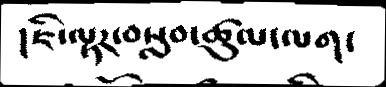།ཇི་ལྟར་བསླབ་ཚུལ་ལག་
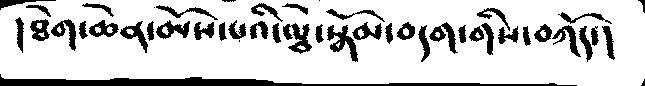།ཐེག་ཆེན་མོས་པའི་ལྕེ་སྒོམ་བདག་གིས་བཀོད་།
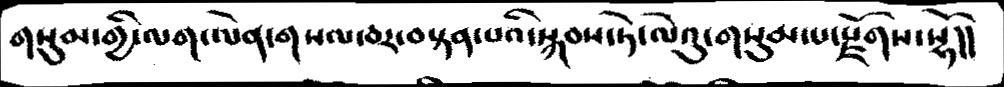གསུམ་གྱི་ལག་ལེན་གསལ་བར་བསྟན་པའི་སྐབས་ཏེ་ལེའུ་གསུམ་པ་རྫོགས་སྷོ།།
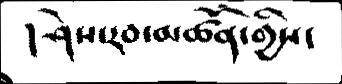།ཤེས་རབ་མཚོན་གྱིས་
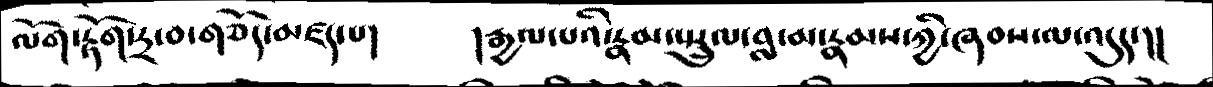ལོག་རྟོག་དྲ་བ་གཅོད་མཛད་པ།   །རྒྱལ་པའི་རྣམ་སྤྲུལ་བླ་མ་རྣམས་ཀྱི་ཞབས་ལ་འདུད་།།
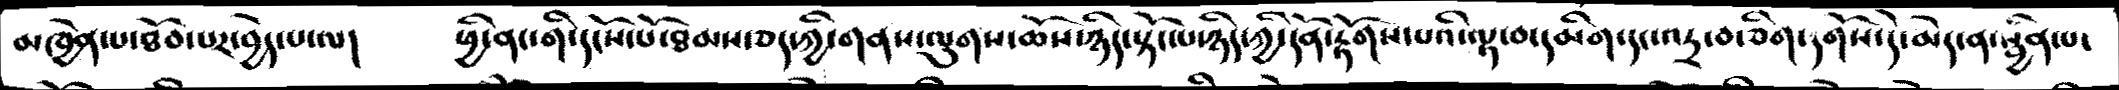མཁྱེན་པ་ཐོབ་པར་བྱེད་པ་ལ།   ཕྱི་ནང་གི་དངོས་པོ་ཐམས་ཅད་ཀྱི་གནས་ལུགས་ཆོས་ཉིད་སྟོང་པ་ཉིད་ཀྱི་དོན་རྟོགས་པའི་ལྟ་བ་དམིག་དང་འདྲ་བ་ཅིག་དགོས་དེ་མེད་ན་སྦྱིན་པ་
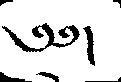༄༅།
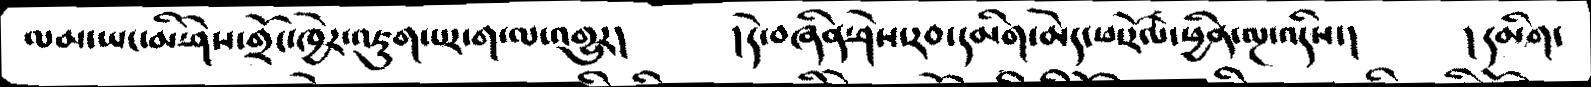ལམ་ཡང་མི་ཤེས་གྲོང་ཁྱེར་འཇུག་པར་ག་ལ་འགྱུར།    །དེ་བཞིན་ཤེས་རབ་དམིག་མེད་ཕ་རོལ་ཕྱིན་ལྔ་འདིས་།   །དམིག་
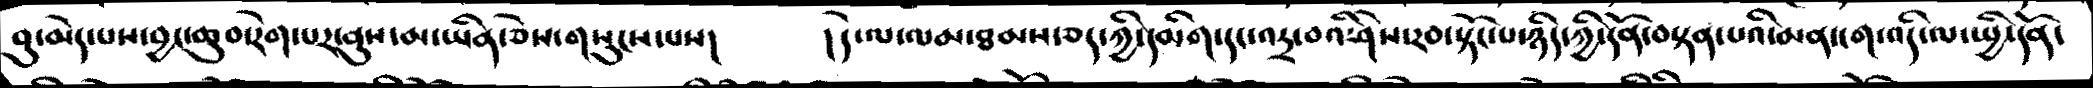བུ་མེད་པས་བྱང་ཆུབ་རེག་པར་ནུས་མ་ཡིན་ཅེས་གསུངས་པས།   །དེ་ལ་ལམ་ཐམས་ཅད་ཀྱི་དམིག་དང་འདྲ་བའི་ཤེས་རབ་སྟོང་པ་ཉིད་ཀྱི་དོན་བསྟན་པའི་མན་ངག་འདི་ལ་སྤྱི་དོན་
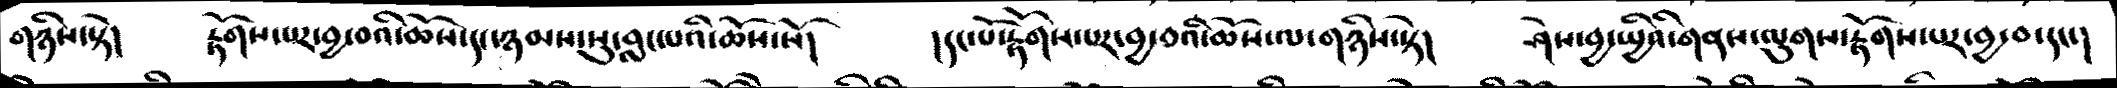གཉིས་སྟེ།   རྟོགས་པར་བྱ་བའི་ཆོས་དང་ཉམས་སུ་བླང་པའི་ཆོས་སོ།   །དང་པོ་རྟོགས་པར་བྱ་བའི་ཆོས་ལ་གཉིས་སྟེ།   ཤེས་བྱ་སྤྱིའི་གནས་ལུགས་རྟོགས་པར་བྱ་བ་དང་།
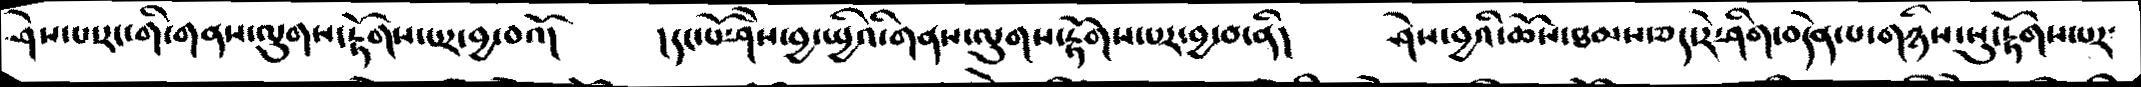ཤེས་པ་རང་གི་གནས་ལུགས་རྟོགས་པར་བྱ་བའོ།    །དང་པོ་ཤེས་བྱ་སྤྱིའི་གནས་ལུགས་རྟོགས་པར་བྱ་བ་ནི།   ཤེས་བྱའི་ཆོས་ཐམས་ཅད་རེ་ཤིག་བདེན་པ་གཉིས་སུ་རྟོགས་པར་
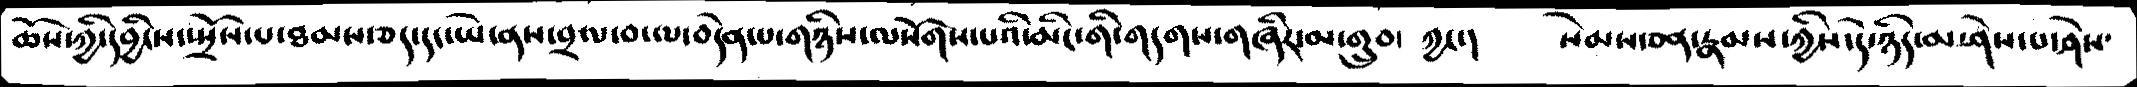ཆོས་ཀྱི་དབྱིངས་སྤྲོས་པ་ཐམས་ཅད་དང་ཡེ་ནས་བྲལ་བ་ལ་བདེན་པ་གཉིས་ལསོགས་པའི་མིང་གི་གདགས་གཞིར་མ་གྲུབ་ ཀྱང་།   སེམས་ཅན་རྣམས་ཀྱིས་དེ་ཉིད་མ་ཤེས་པ་ཤེས་
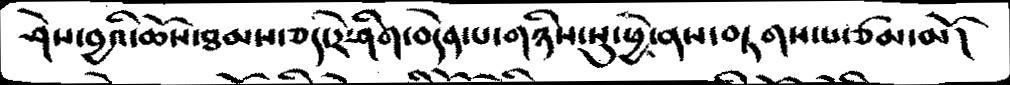ཤེས་བྱའི་ཆོས་ཐམས་ཅད་རེ་ཤིག་བདེན་པ་གཉིས་སུ་ཕྱེ་ནས་བཏགས་པ་ཙམ་མོ།
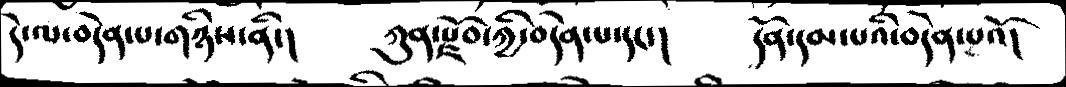དེ་ལ་བདེན་པ་གཉིས་ནི་།    ཀུན་རྫོབ་ཀྱི་བདེན་པ་དང་།    དོན་དམ་པའི་བདེན་པའོ།
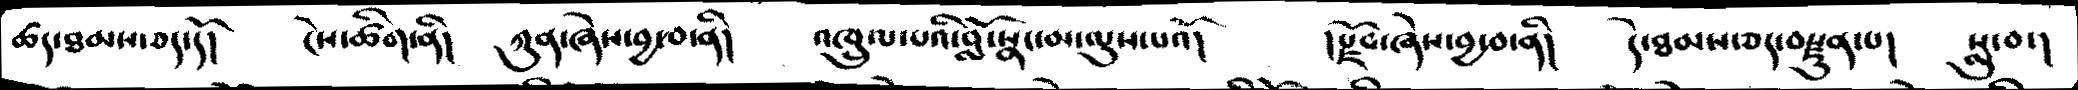ཚད་ཐམས་ཅད་དོ།   ངེས་ཚིག་ནི།   ཀུན་ཞེས་བྱ་བ་ནི།   འཁྲུལ་པའི་བློ་སྣང་མ་ལུས་པའོ།   །རྫོབ་ཞེས་བྱ་བ་ནི།    དེ་ཐམས་ཅད་བརྫུན་པ།    སླུ་བ་།
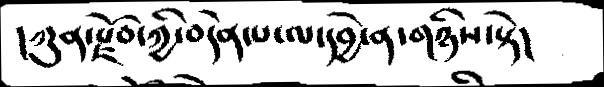།ཀུན་རྫོབ་ཀྱི་བདེན་པ་ལ་དབྱེ་ན་གཉིས་སྟེ།
